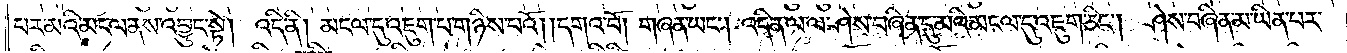པར་མའི་མངལ་ནས་འབྱུང་སྟེ། འདི་ནི། མངལ་དུ་འཇུག་པ་གཉིས་པའོ། །དགའ་བོ། གཞན་ཡང༌། འདི་ན་ལ་ལ་ཤེས་བཞིན་དུ་མའི་མངལ་དུ་འཇུག་ཅིང༌། ཤེས་བཞིན་མ་ཡིན་པར་
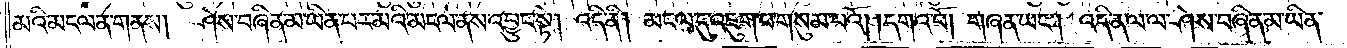མའི་མངལ་ན་གནས། ཤེས་བཞིན་མ་ཡིན་པར་མའི་མངལ་ནས་འབྱུང་སྟེ། འདི་ནི། མངལ་དུ་འཇུག་པ་གསུམ་པའོ། །དགའ་བོ། གཞན་ཡང༌། འདི་ན་ལ་ལ་ཤེས་བཞིན་མ་ཡིན་
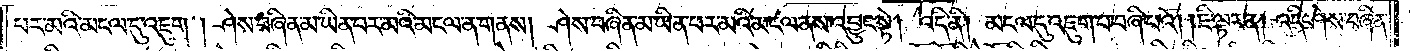པར་མའི་མངལ་དུ་འཇུག །ཤེས་བཞིན་མ་ཡིན་པར་མའི་མངལ་ན་གནས། ཤེས་བཞིན་མ་ཡིན་པར་མའི་མངལ་ནས་འབྱུང་སྟེ། འདི་ནི། མངལ་དུ་འཇུག་པ་བཞི་བའོ། །ཇི་ལྟར་ན། འདི་ཤེས་བཞིན་
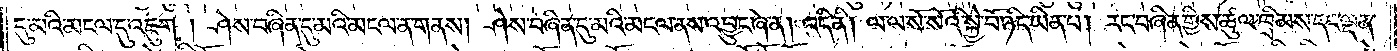དུ་མའི་མངལ་དུ་འཇུག །ཤེས་བཞིན་དུ་མའི་མངལ་ན་གནས། ཤེས་བཞིན་དུ་མའི་མངལ་ནས་འབྱུང་ཞེ་ན། འདི་ནི། ལ་ལ་སོ་སོའི་སྐྱེ་བོ་ཉིད་ཡིན་པ། རང་བཞིན་གྱིས་ཚུལ་ཁྲིམས་དང་ལྡན་
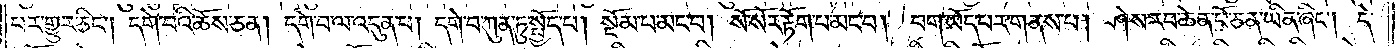པར་གྱུར་ཅིང༌། དགེ་བའི་ཆོས་ཅན། དགེ་བ་ལ་འདུན་པ། དགེ་བ་ཀུན་ཏུ་སྤྱོད་པ། སྡོམ་པ་མང་བ། སོ་སོར་རྟོག་པ་མང་བ། བག་ཡོད་པར་གནས་པ། ཤེས་རབ་ཆེན་པོ་ཅན་ཡིན་ཞིང༌། དེ་
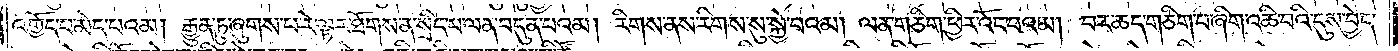འགྱོད་པ་མེད་པའམ། རྒྱུན་ཏུ་ཞུགས་པ་རེ་ལྟར་ཐོགས་ན་སྲིད་པ་ལན་བདུན་པའམ། རིགས་ནས་རིགས་སུ་སྐྱེ་བའམ། ལན་གཅིག་ཕྱིར་འོང་བའམ། བར་ཆད་གཅིག་པ་ཞིག་འཆི་བའི་དུས་བྱེད་
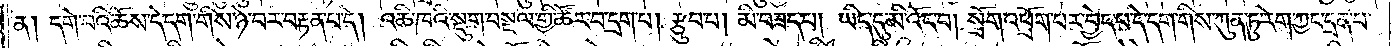ན། དགེ་བའི་ཆོས་དེ་དག་གིས་ཉེ་བར་བརྟན་པ་དེ། འཆི་ཁའི་སྡུག་བསྔལ་གྱི་ཚོར་བ་དྲག་པ། རྩུབ་པ། མི་བཟད་པ། ཡིད་དུ་མི་འོང་བ། སྲོག་འཕྲོག་པར་བྱེད་པ་དེ་དག་གིས་ཀུན་ཏུ་རེག་ཀྱང་དྲན་པ་
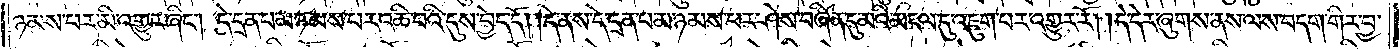ཉམས་པར་མི་འགྱུར་ཞིང༌། དེ་དྲན་པ་མ་ཉམས་པར་འཆི་བའི་དུས་བྱེད་དོ། །དེ་ནས་དེ་དྲན་པ་མ་ཉམས་པར་ཤེས་བཞིན་དུ་མའི་མངལ་དུ་འཇུག་པར་འགྱུར་རོ། །དེ་དེར་ཞུགས་ནས་ལས་བདག་གིར་བྱ་
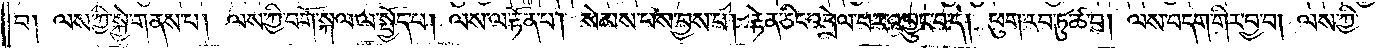བ། ལས་ཀྱི་སྐྱེ་གནས་པ། ལས་ཀྱི་བགོ་སྐལ་ལ་སྤྱོད་པ། ལས་ལ་རྟོན་པ། སེམས་པས་བྱས་པ། རྟེན་ཅིང་འབྲེལ་བར་འབྱུང་བ་དེ། ཕུག་རབ་ཏུ་ཚ་བ། ལས་བདག་གིར་བྱ་བ། ལས་ཀྱི་
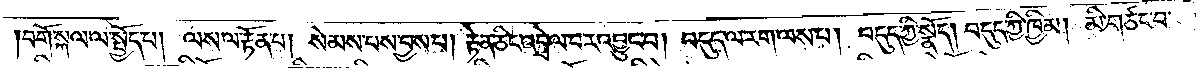།བགོ་སྐལ་ལ་སྤྱོད་པ། ལས་ལ་རྟོན་པ། སེམས་པས་བྱས་པ། རྟེན་ཅིང་འབྲེལ་བར་འབྱུང་བ། བདུད་ལ་རག་ལས་པ། བདུད་ཀྱི་སྣོད། བདུད་ཀྱི་ཁྱིམ། མི་གཙང་བ་
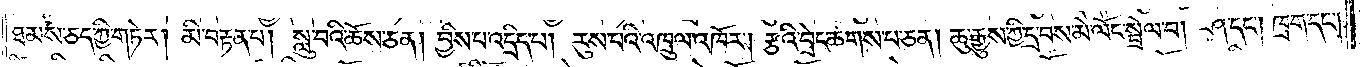ཐམས་ཅད་ཀྱི་གཏེར། མི་བརྟན་པ། སླུ་བའི་ཆོས་ཅན། བྱིས་པ་འདྲིད་པ། རུས་པའི་འཁྲུལ་འཁོར། རྩའི་བྲེང་ཆགས་པ་ཅན། ཆུ་རྒྱུས་ཀྱི་དྲ་བས་མེ་ལོང་སྦྲེལ་བ། ཤ་དང༌། ཁྲག་དང༌།
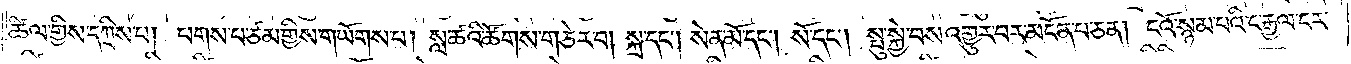ཚིལ་གྱིས་དཀྲིས་པ། པགས་པ་ཙམ་གྱིས་གཡོགས་པ། སླ་ཚའི་ཚོགས་གཅེར་བ། སྐྲ་དང༌། སེན་མོ་དང༌། སོ་དང༌། སྤུ་སྐྱེ་བས་འགྱུར་བར་མངོན་པ་ཅན། ངའོ་སྙམ་པའི་ང་རྒྱལ་ངར་
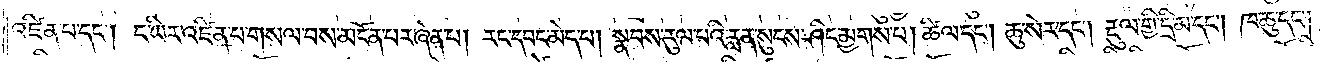འཛིན་པ་དང༌། ང་ཡིར་འཛིན་པ་གསལ་བས་མངོན་པར་ཞེན་པ། རང་དབང་མེད་པ། སྣབས་རུལ་པའི་རླན་སུངས་ཤིང་མྱགས་པ། ཚིལ་དང༌། ཆུ་སེར་དང༌། རྡུལ་གྱི་དྲི་མ་དང༌། ཁ་ཆུ་དང༌།
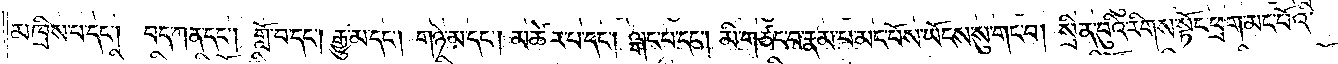མཁྲིས་པ་དང༌། བད་ཀན་དང༌། གློ་བ་དང༌། རྒྱུ་མ་དང༌། གཉེ་མ་དང༌། མཚེར་པ་དང༌། ལྒང་པ་དང༌། མི་གཙང་བ་རྣམ་པ་མང་པོས་ཡོངས་སུ་གང་བ། སྲིན་བུའི་རིགས་སྟོང་ཕྲག་མང་པོའི་
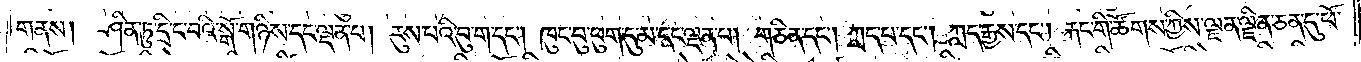གནས། ཤིན་ཏུ་དྲི་ང་བའི་སྒོ་གཉིས་དང་ལྡན་པ། རུས་པའི་བུ་ག་དང༌། ཁུང་བུ་ཕུག་དུ་མ་དང་ལྡན་པ། གཅིན་དང༌། ཀླད་པ་དང༌། ཀླད་རྒྱས་དང༌། རྐང་གི་ཚོགས་ཀྱིས་ལྗན་ལྗིན་ཅན་དུ་ཕོ་
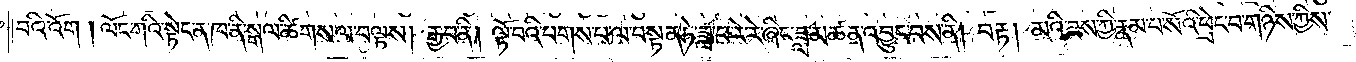བའི་འོག །ལོང་གའི་སྟེང་ན་ཁ་ནི་སྒལ་ཚིགས་ལ་བལྟས། རྒྱབ་ནི། ལྟོ་བའི་པགས་པ་ལ་བསྟན་ཏེ་ཟླ་བ་རེ་རེ་ཞིང་ཟླ་མཚན་འབྱུང་བས་ནི། བརྟ། མའི་ཟས་ཀྱི་རྣམ་པ་སོའི་ཕྲེང་བ་གཉིས་ཀྱིས་
